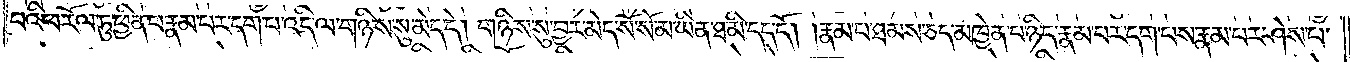པའི་ཕ་རོལ་ཏུ་ཕྱིན་པ་རྣམ་པར་དག་པ་འདི་ལ་གཉིས་སུ་མེད་དེ། གཉིས་སུ་བྱར་མེད་སོ་སོ་མ་ཡིན་ཐ་མི་དད་དོ། །རྣམ་པ་ཐམས་ཅད་མཁྱེན་པ་ཉིད་རྣམ་པར་དག་པས་རྣམ་པར་ཤེས་པ་
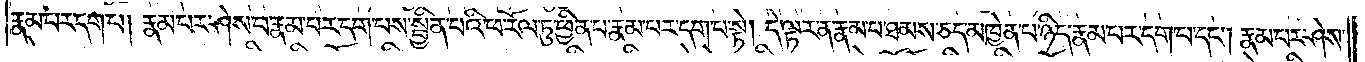རྣམ་པར་དག་པ། རྣམ་པར་ཤེས་པ་རྣམ་པར་དག་པས་སྦྱིན་པའི་ཕ་རོལ་ཏུ་ཕྱིན་པ་རྣམ་པར་དག་པ་སྟེ། དེ་ལྟར་ན་རྣམ་པ་ཐམས་ཅད་མཁྱེན་པ་ཉིད་རྣམ་པར་དག་པ་དང༌། རྣམ་པར་ཤེས་
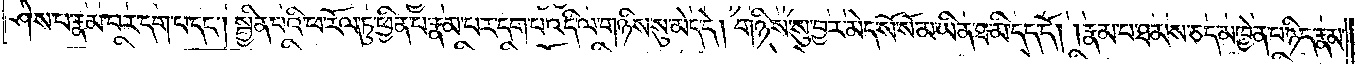ཤེས་པ་རྣམ་པར་དག་པ་དང༌། སྦྱིན་པའི་ཕ་རོལ་ཏུ་ཕྱིན་པ་རྣམ་པར་དག་པ་འདི་ལ་གཉིས་སུ་མེད་དེ། གཉིས་སུ་བྱར་མེད་སོ་སོ་མ་ཡིན་ཐ་མི་དད་དོ། །རྣམ་པ་ཐམས་ཅད་མཁྱེན་པ་ཉིད་རྣམ་
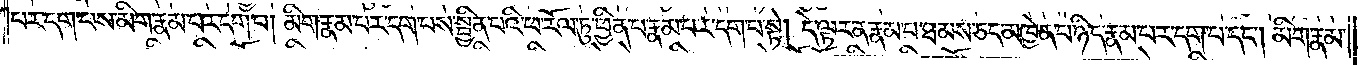པར་དག་པས་མིག་རྣམ་པར་དག་པ། མིག་རྣམ་པར་དག་པས་སྦྱིན་པའི་ཕ་རོལ་ཏུ་ཕྱིན་པ་རྣམ་པར་དག་པ་སྟེ། དེ་ལྟར་ན་རྣམ་པ་ཐམས་ཅད་མཁྱེན་པ་ཉིད་རྣམ་པར་དག་པ་དང༌། མིག་རྣམ་
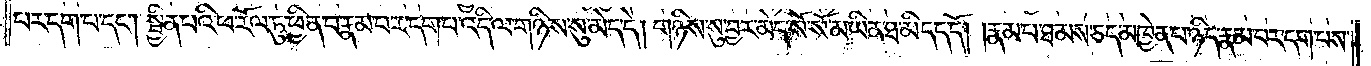པར་དག་པ་དང༌། སྦྱིན་པའི་ཕ་རོལ་ཏུ་ཕྱིན་པ་རྣམ་པར་དག་པ་འདི་ལ་གཉིས་སུ་མེད་དེ། གཉིས་སུ་བྱར་མེད་སོ་སོ་མ་ཡིན་ཐ་མི་དད་དོ། །རྣམ་པ་ཐམས་ཅད་མཁྱེན་པ་ཉིད་རྣམ་པར་དག་པས་
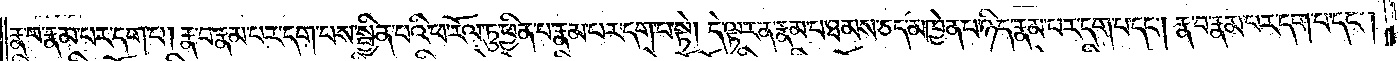རྣ་བ་རྣམ་པར་དག་པ། རྣ་བ་རྣམ་པར་དག་པས་སྦྱིན་པའི་ཕ་རོལ་ཏུ་ཕྱིན་པ་རྣམ་པར་དག་པ་སྟེ། ད་ལྟར་ན་རྣམ་པ་ཐམས་ཅད་མཁྱེན་པ་ཉིད་རྣམ་པར་དག་པ་དང༌། རྣ་བ་རྣམ་པར་དག་པ་དང༌།
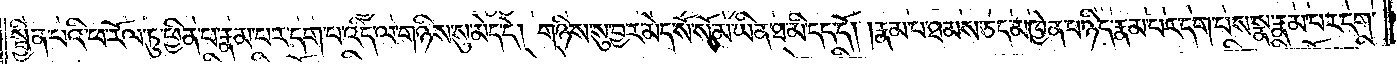སྦྱིན་པའི་ཕ་རོལ་ཏུ་ཕྱིན་པ་རྣམ་པར་དག་པ་འདི་ལ་གཉིས་སུ་མེད་དེ། གཉིས་སུ་བྱར་མེད་སོ་སོ་མ་ཡིན་ཐ་མི་དད་དོ། །རྣམ་པ་ཐམས་ཅད་མཁྱེན་པ་ཉིད་རྣམ་པར་དག་པས་སྣ་རྣམ་པར་དག་
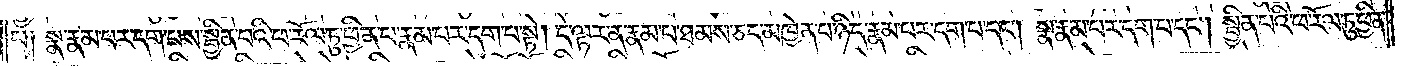པ༑ སྣ་རྣམ་པར་དག་པས་སྦྱིན་པའི་ཕ་རོལ་ཏུ་ཕྱིན་པ་རྣམ་པར་དག་པ་སྟེ། དེ་ལྟར་ན་རྣམ་པ་ཐམས་ཅད་མཁྱེན་པ་ཉིད་རྣམ་པར་དག་པ་དང༌། སྣ་རྣམ་པར་དག་པ་དང༌། སྦྱིན་པའི་ཕ་རོལ་ཏུ་ཕྱིན་
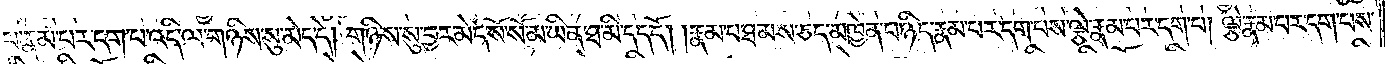པ་རྣམ་པར་དག་པ་འདི་ལ་གཉིས་སུ་མེད་དེ། གཉིས་སུ་བྱར་མེད་སོ་སོ་མ་ཡིན་ཐ་མི་དད་དོ། །རྣམ་པ་ཐམས་ཅད་མཁྱེན་པ་ཉིད་རྣམ་པར་དག་པས་ལྕེ་རྣམ་པར་དག་པ། ལྕེ་རྣམ་པར་དག་པས་
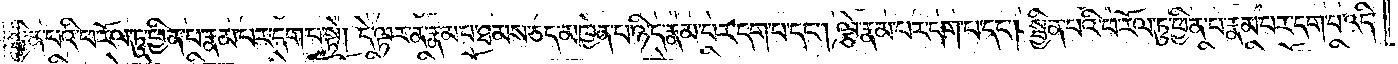སྦྱིན་པའི་ཕ་རོལ་ཏུ་ཕྱིན་པ་རྣམ་པར་དག་པ་སྟེ། དེ་ལྟར་ན་རྣམ་པ་ཐམས་ཅད་མཁྱེན་པ་ཉིད་རྣམ་པར་དག་པ་དང༌། ལྕེ་རྣམ་པར་དག་པ་དང༌། སྦྱིན་པའི་ཕ་རོལ་ཏུ་ཕྱིན་པ་རྣམ་པར་དག་པ་འདི་
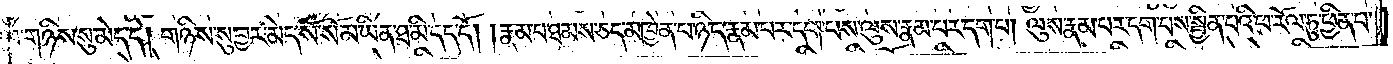ལ་གཉིས་སུ་མེད་དེ། གཉིས་སུ་བྱར་མེད་སོ་སོ་མ་ཡིན་ཐ་མི་དད་དོ། །རྣམ་པ་ཐམས་ཅད་མཁྱེན་པ་ཉིད་རྣམ་པར་དག་པས་ལུས་རྣམ་པར་དག་པ། ལུས་རྣམ་པར་དག་པས་སྦྱིན་པའི་ཕ་རོལ་ཏུ་ཕྱིན་པ་
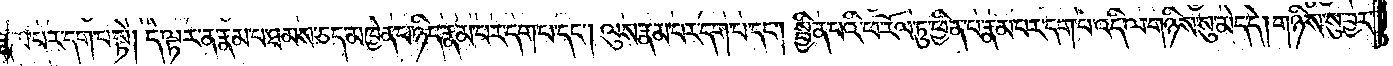རྣམ་པར་དག་པ་སྟེ། དེ་ལྟར་ན་རྣམ་པ་ཐམས་ཅད་མཁྱེན་པ་ཉིད་རྣམ་པར་དག་པ་དང༌། ལུས་རྣམ་པར་དག་པ་དང༌། སྦྱིན་པའི་ཕ་རོལ་ཏུ་ཕྱིན་པ་རྣམ་པར་དག་པ་འདི་ལ་གཉིས་སུ་མེད་དེ། གཉིས་སུ་བྱར་
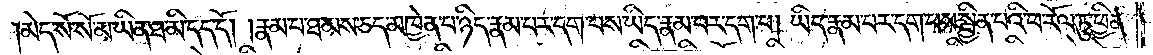མེད་སོ་སོ་མ་ཡིན་པ་མི་དད་དོ། །རྣམ་པ་ཐམས་ཅད་མཁྱེན་པ་ཉིད་རྣམ་པར་དག་པས་ཡིད་རྣམ་པར་དག་པ། ཡིད་རྣམ་པར་དག་པས་སྦྱིན་པའི་ཕ་རོལ་ཏུ་ཕྱིན་
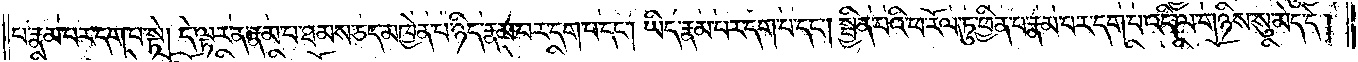པ་རྣམ་པར་དག་པ་སྟེ། དེ་ལྟར་ན་རྣམ་པ་ཐམས་ཅད་མཁྱེན་པ་ཉིད་རྣམ་པར་དག་པ་དང༌། ཡིད་རྣམ་པར་དག་པ་དང༌། སྦྱིན་པའི་ཕ་རོལ་ཏུ་ཕྱིན་པ་རྣམ་པར་དག་པ་འདི་ལ་གཉིས་སུ་མེད་དེ།
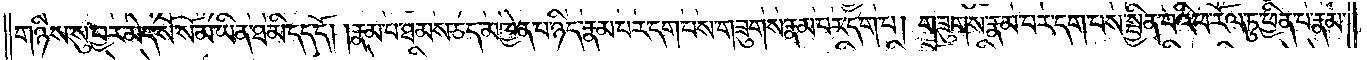གཉིས་སུ་བྱར་མེད་སོ་སོ་མ་ཡིན་ཐ་མི་དད་དོ། །རྣམ་པ་ཐམས་ཅད་མཁྱེན་པ་ཉིད་རྣམ་པར་དག་པས་གཟུགས་རྣམ་པར་དག་པ། གཟུགས་རྣམ་པར་དག་པས་སྦྱིན་པའི་ཕ་རོལ་ཏུ་ཕྱིན་པ་རྣམ་
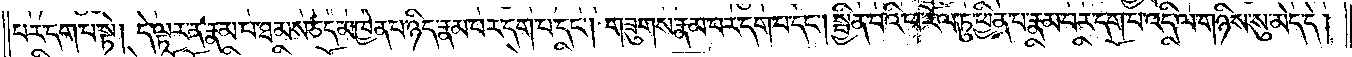པར་དག་པ་སྟེ༑ དེ་ལྟར་ན་རྣམ་པ་ཐམས་ཅད་མཁྱེན་པ་ཉིད་རྣམ་པར་དག་པ་དང༌། གཟུགས་རྣམ་པར་དག་པ་དང༌། སྦྱིན་པའི་ཕ་རོལ་ཏུ་ཕྱིན་པ་རྣམ་པར་དག་པ་འདི་ལ་གཉིས་སུ་མེད་དེ།
